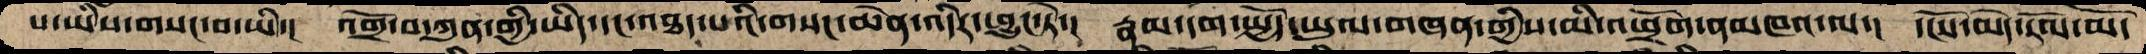ས་ཡིས་གསང་བ་ཡི་།  འགྲོ་བ་ཀུན་གྱི་ཡིད་དང་འཐད་པའི་གསང་ཆེན་འདིར་ཕྱུང་ཏེ་།  རྣམ་དག་སྤྱོད་་ཡུལ་གཞན་གྱིས་མི་འཕྲོག་ནམཁའ་ལ་།  དངོས་མེད་རོལ་མོ་
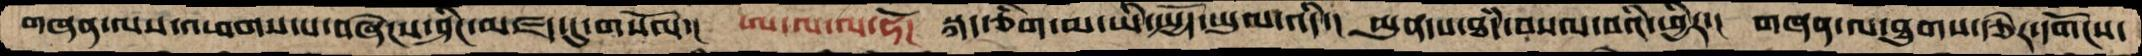གཞནལས་འཕགས་པ་བཞེངས་ཤིང་མཛད་དུ་གསོལ་།  ཨ་ལ་ལ་ཧོ།  སྐད་ཅིག་མ་ཡི་སྤྱོད་ཡུལ་འདི་།  མུན་པ་ཐཾད་བསལ་བའི་ཕྱིར་།  གཞན་ལ་ཐུགས་རྩེར་དགོངས་
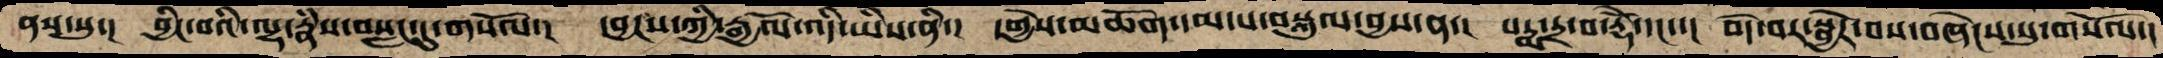ནས་སུ་།  བྱིང་བའི་ལྷ་རྣཾས་བསླང་དུ་གསོལ་།  དབྱངས་ཀྱི་རྒྱལོ་འདི་ཡིས་ནི་།  དགྱེས་མཆོག་དམ་པ་བསྐུལ་བྱས་ན་།  པདྨ་དྲ་བ་རྡོེ་དང་་།  བདེ་བར་སྦྱོར་བས་བཞེངས་སུ་གསོལ་།
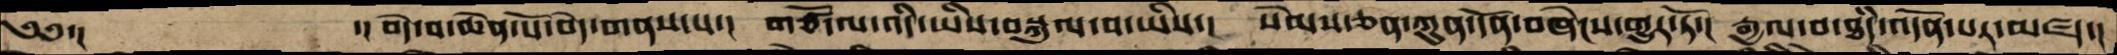༄༅་།     ་།བདེ་བ་ཆེན་པོ་བདེ་གནས་པ་།  གཙོ་ལ་འདི་ཡིས་བསྐུལ་བ་ཡིས་།  སེམས་ཅན་ཀུན་དོན་བཞེངས་གྱུར་ཏོ་།  རྒྱལ་བ་ཐདཾ་འདོན་པར་མཛད་།
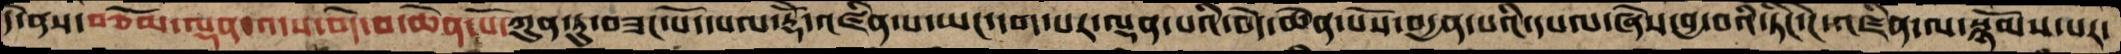དེ་ནས་བཅོམ་ལྡན་འདས་བདེ་བ་ཆེན་པོ་ཀུན་ཏུ་བཟང་པོ་དཔལ་རྡོེ་འཛིན་པ་ཡང་དག་པར་ལྡན་པའི་བདེ་ཆེན་པོས་བདྱན་པའི་དཔལ་ཞེས་བྱ་བའི་ཏིང་ངེ་འཛིན་ལ་སྙོམས་པར་
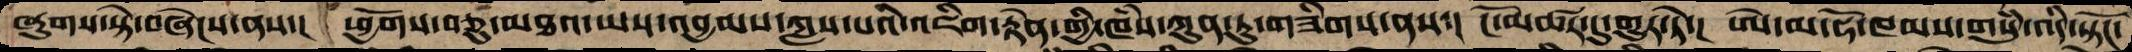ཞུགས་སྟེ་བཞེངས་ནས་།  ཕྱོགས་བཅུ་མཐའ་ཡས་འབྱམས་ཀླས་པའི་འཇིག་རྟེན་གྱི་ཁཾས་ཀུན་ཏུ་གཟིགས་ནས་།  ངོ་མཚར་དུ་གྱུར་ཏེ་།  ཨེ་མ་ཧོ་ཁམས་གསུཾ་འདི་སྟོང་
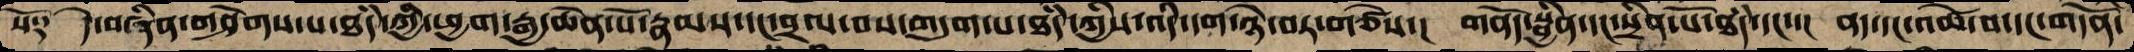སོ༑   དེ་བཞིན་གཤེགས་པ་ཐདཾ་ཀྱི་ཕྱག་རྒྱ་ཆེན་པོ་རྣམས་དང་བྲལ་བས་གདུག་པ་ཐདཾ་ཀྱིས་འདི་དག་ཉེ་བར་གཙེས་།  གནོད་སྦྱིན་དང་སྲིན་པོ་ཐདཾ་དང་་།  ནད་དང་འཚེ་བ་དང་གདོན་
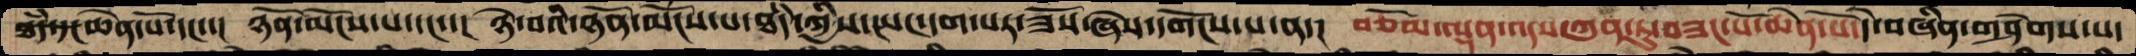ཐཾད་དང་ཆེན་པོ་དང་་།  ཉོན་མོངས་པ་དང་་།  ཉེ་བའི་ཉོན་མོངས་པ་ཐཾད་ཀྱིས་ཡང་དག་པར་ཟོས་ཞེས་དགོངས་པ་ན་།  བཅོམ་ལྡན་འདས་ཀུན་ཏུ་བཟང་པོ་ཆེན་པོ་དེ་བཞིན་གཤེགས་པ་
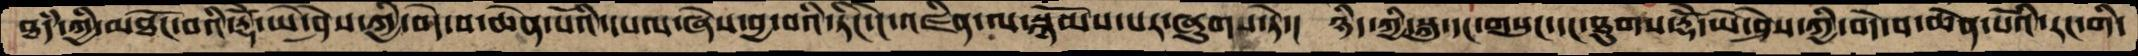ཐཾད་ཀྱི་མཐོང་བའི་རྡོེ་ཡེ་ཤེས་ཀྱི་བདེ་བ་ཆེན་པོའི་དཔལ་ཞེས་བྱ་བའི་ཏིང་ངེ་འཛིན་ལ་སྙོམས་པར་ཞུགས་ཏེ་།  ཉིད་ཀྱི་སྐུ་དང་གསུང་དང་ཐུགས་རྡོེ་ཡེ་ཤེས་ཀྱི་བདེ་བ་ཆེན་པོའི་རང་གི་
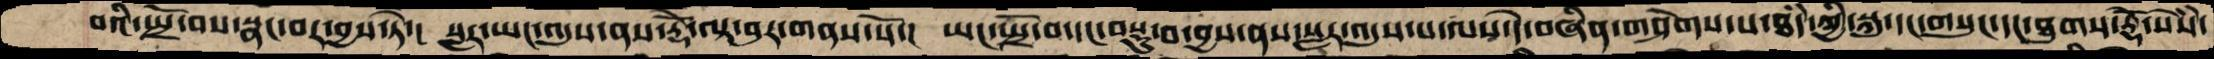བའི་སྤྲོ་བས་སྣང་བར་བྱས་ཏེ་།  སླར་ཡང་འདུས་ནས་རྡོེ་ལྟ་བུར་གནས་སོ་།  ཡང་སྤྲོ་བ་དང་བསྡུ་བ་བྱས་ནས་སླར་འདུས་པ་ལས་དེ་བཞིན་གཤེགས་པ་ཐཾད་ཀྱི་སྐུ་དང་གསུང་དང་ཐུགས་རྡོེ་སེཾས་
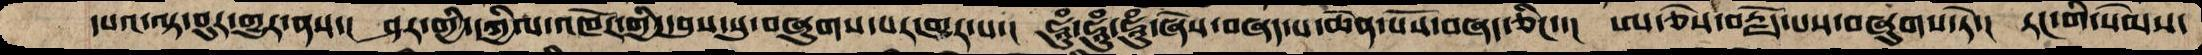དཔའ་ལྟ་བུར་གྱུར་ནས་།  ཤར་གྱི་དཀྱིལ་འཁོར་གྱི་དབུས་སུ་བཞུགས་པར་གྱུར་པ་།  ཧཱུཾ་ཧཱུཾ་ཧཱུཾ་ཞེས་བཞད་པ་ཆེན་པོས་བཞད་ཅིང་་།  ཨ་ཅེས་བརྗོད་པས་བཞུགས་ཏེ་།  རང་གི་སེམས་
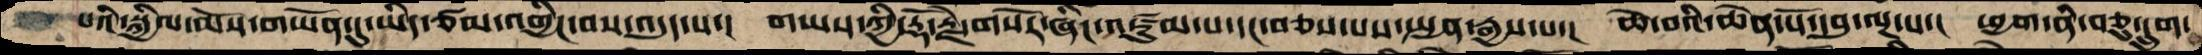པའི་སྐྱིལ་མོས་གཡོན་དུ་ཡིད་ཙམ་འགྱིང་བས་འདུད་པ་།  གཡས་ཀྱི་་རྡོ་རྗེ་གསོར་ཞིང་འཛུམ་པ་དང་བཅས་པས་སྤྱན་རྒྱས་པ་།  ཆེ་བའི་ཆེན་པོ་དབུ་ལྔ་པ་།  ཕྱག་ནི་བཅུ་དྲུག་
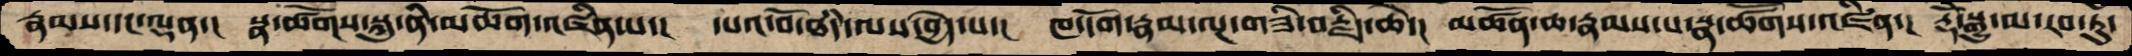རྣམས་དང་ལྡན་།  སྣ་ཚོགས་སྐུ་ནི་མཆོག་འཛིན་པ་།  དཔའ་བོ་ཐཾད་ལས་བྱེད་པ་།  ཁ་དོག་རྣམ་ལྔ་གཟི་བརྗིད་ཆེ་།  མཚོན་ཆ་རྣམས་པ་སྣ་ཚོགས་འཛིན་།  རྡོེ་སྒྱུ་མ་རབ་ཏུ་
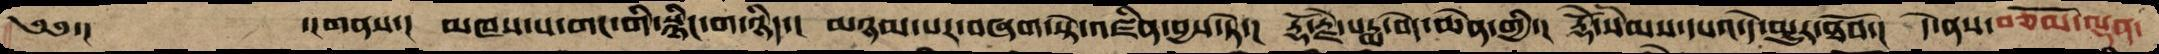༄༅་།        ་།གནས་།  མཁས་པ་གང་གི་སྙིང་ག་ཉིད་།  མཉམ་པར་བཞག་སྟེ་འཛིན་བྱས་ཏེ་།  རྡོ་རྗེ་པདྨ་བདེ་ཆེན་གྱི་།  རྡོེ་སེམས་དཔའ་དེ་མྱུར་ཐོབ་།  དེ་ནས་བཅོམ་ལྡན་
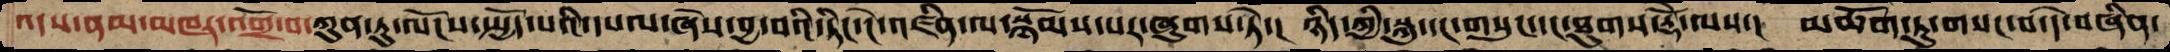འདས་ནམ་མཁར་འགྲོ་བ་ཀུན་ཏུ་ལོངས་སྤྱོད་པའི་དཔལ་ཞེས་བྱ་བའི་ཏིང་ངེ་འཛིན་ལ་སྙོམས་པར་ཞུགས་ཏེ་།  ཉིད་ཀྱི་སྐུ་དང་གསུང་དང་ཐུགས་རྡོེ་ལས་།  མཆོག་ཏུ་གསང་བ་དེ་བཞིན་
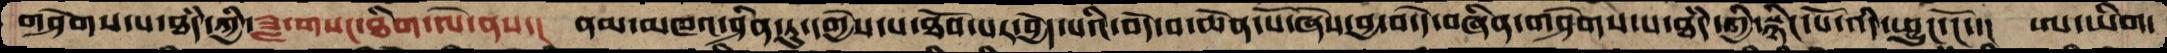གཤེགས་པ་ཐཾད་ཀྱི་ཟླ་གསང་ཐིག་ལེ་ནས་།  ནམ་མཁའ་ཤིན་ཏུ་དགྱེས་པ་ཐོབ་པར་བྱེད་པའི་བདེ་བ་ཆེན་པོ་ཞེས་བྱ་བ་དེ་བཞིན་གཤེགས་པ་ཐཾད་ཀྱི་སྙིང་པོ་འདི་ཕྱུང་ངོ་། ཨ་ཡིག་
